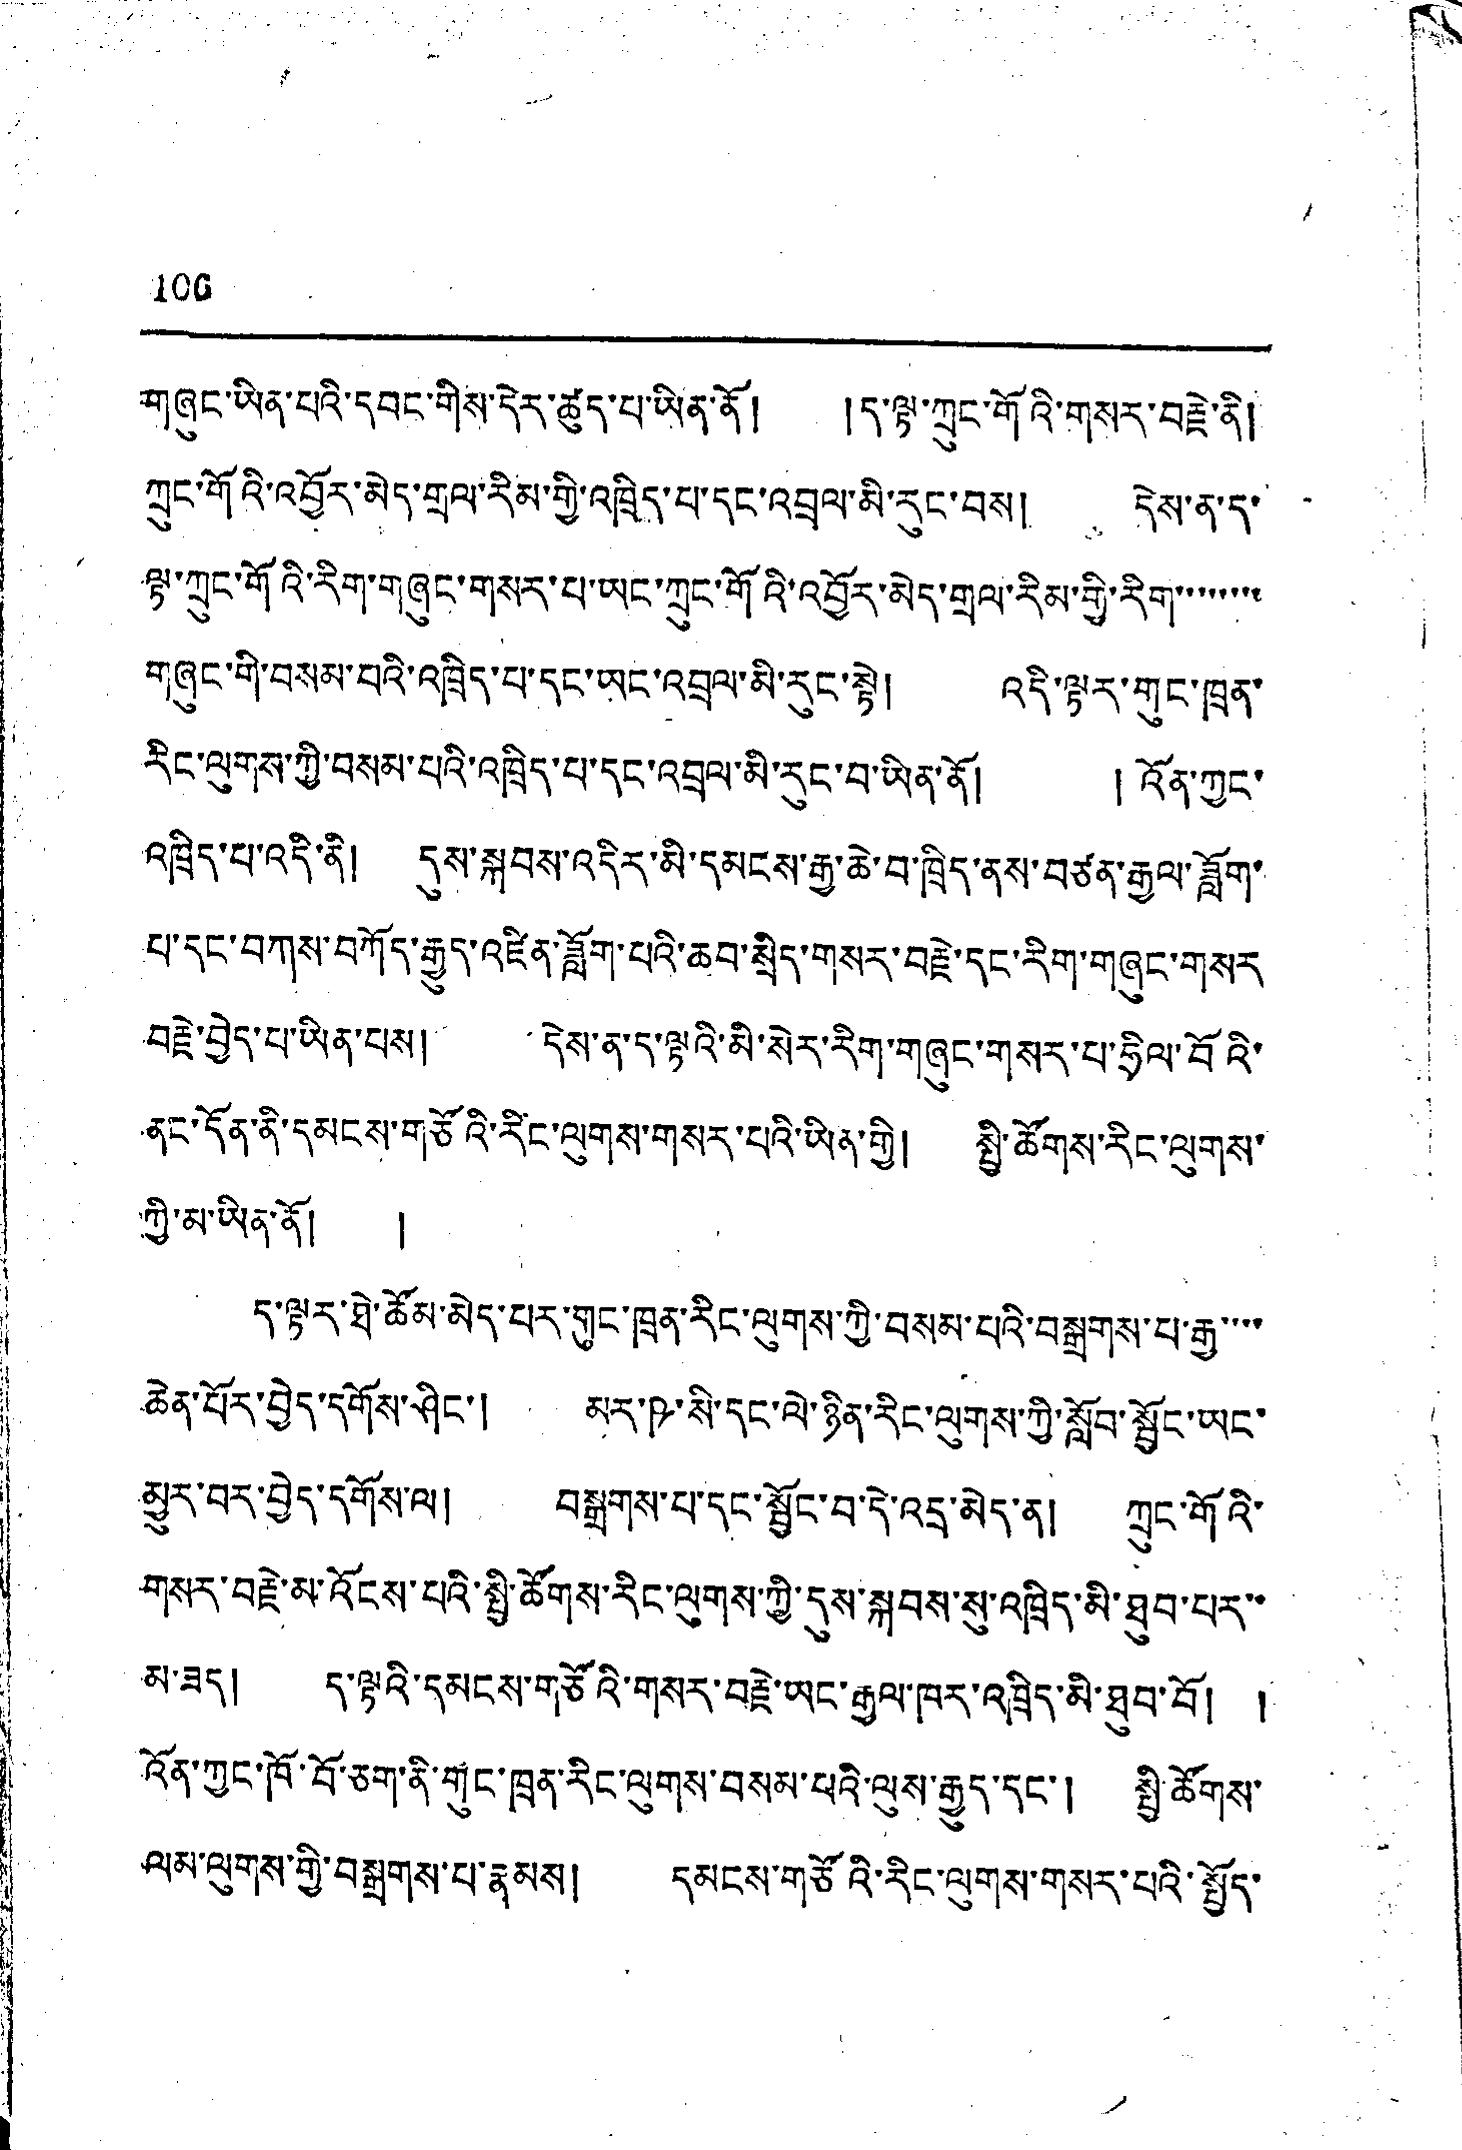106
གཞུང་ཡིན་པའི་དབང་གིས་དེར་ཚུད་པ་ཡིན་ནོ། །ད་ལྟ་ཀྲུང་གོའི་གསར་བརྗེ་ནི།
ཀྲུང་གོའི་འབྱོར་མེད་གྲལ་རིམ་གྱི་འཁྲིད་པ་དང་འབྲལ་མི་རུང་བས། དེས་ན་ད་
ལྟ་ཀྲུང་གོའི་རིག་གཞུང་གསར་པ་ཡང་ཀྲུང་གོའི་འབྱོར་མེད་གྲལ་རིམ་གྱི་རིག་་་་་་་་
གཞུང་གི་བསམ་བའི་འཁྲིད་པ་དང་ཡང་འབྲལ་མི་རུང་སྟེ། འདི་ལྟར་གུང་ཁྲན་
རིང་ལུགས་ཀྱི་བསམ་པའི་འཁྲིད་པ་དང་འབྲལ་མི་རུང་བ་ཡིན་ནོ། །འོན་ཀྱང་
འཁྲིད་པ་འདི་ནི། དུས་སྐབས་འདིར་མི་དམངས་རྒྱ་ཆེ་བ་ཁྲིད་ནས་བཙན་རྒྱལ་ཟློབ་
པ་དང་བཀས་བཀོད་རྒྱུད་འཛིན་ཟློག་པའི་ཆབ་སྲིད་གསར་བརྗེ་དང་རིག་གཞུང་གསར
བརྗེ་བྱེད་པ་ཡིན་པས། དེས་ན་ད་ལྟའི་མི་སེར་རིག་གཞུང་གསར་པ་ཧྲིལ་བོའི་
ནང་དོན་ནི་དམངས་གཙོའི་རིང་ལུགས་གསར་པའི་ཡིན་གྱི། སྤྱི་ཚོགས་རིང་ལུགས་
ཀྱི་མ་ཡིན་ནོ། །
ད་ལྟར་ཐེ་ཚོམ་མེད་པར་གུང་ཁྲན་རིང་ལུགས་ཀྱི་བསམ་པའི་བསྒྲགས་པ་རྒྱུ་་་་
ཆེན་པོར་བྱེད་དགོས་ཤིང་། མར་ཥ་སི་དང་ལེ་ཉིན་རིང་ལུགས་ཀྱི་སློབ་སྦྱོང་ཡང་
མྱུར་བར་བྱེད་དགོས་ལ། བསྒྲགས་པ་དང་སྦྱོང་བ་དེ་འདྲ་མེད་ན། ཀྲུང་གོའི་
གསར་བརྗེ་མ་འོངས་པའི་སྤྱི་ཚོགས་རིང་ལུགས་ཀྱི་དུས་སྐབས་སུ་འཁྲིད་མི་ཐུབ་པར་་
མ་ཟད། ད་ལྟའི་དམངས་གཙོའི་གསར་བརྗེ་ཡང་རྒྱལ་ཁར་འཁྲིད་མི་ཐུབ་བོ། །
འོན་ཀྱང་ཁོ་བོ་ཅག་ནི་གུང་ཁྲན་རིང་ལུགས་བསམ་པའི་ལུས་རྒྱུད་དང་། སྤྱི་ཚོགས་
ལམ་ལུགས་གྱི་བསྒྲགས་པ་རྣམས། དམངས་གཙོའི་རིང་ལུགས་གསར་པའི་སྤྱོད་
